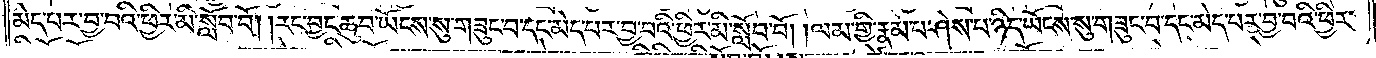མེད་པར་བྱ་བའི་ཕྱིར་མི་སློབ་བོ། །རང་བྱང་ཆུབ་ཡོངས་སུ་གཟུང་བ་དང་མེད་པར་བྱ་བའི་ཕྱིར་མི་སློབ་བོ། །ལམ་གྱི་རྣམ་པ་ཤེས་པ་ཉིད་ཡོངས་སུ་གཟུང་བ་དང་མེད་པར་བྱ་བའི་ཕྱིར་
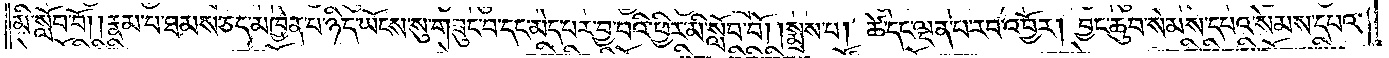མི་སློབ་བོ། །རྣམ་པ་ཐམས་ཅད་མཁྱེན་པ་ཉིད་ཡོངས་སུ་གཟུང་བ་དང་མེད་པར་བྱ་བའི་ཕྱིར་མི་སློབ་བོ། །སྨྲས་པ། ཚེ་དང་ལྡན་པ་རབ་འབྱོར། བྱང་ཆུབ་སེམས་དཔའ་སེམས་དཔའ་
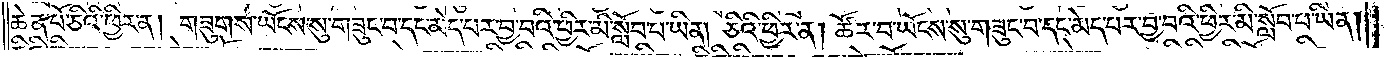ཆེན་པོ་ཅིའི་ཕྱིར་ན། གཟུགས་ཡོངས་སུ་གཟུང་བ་དང་མེད་པར་བྱ་བའི་ཕྱིར་མི་སློབ་པ་ཡིན། ཅིའི་ཕྱིར་ན། ཚོར་བ་ཡོངས་སུ་གཟུང་བ་དང་མེད་པར་བྱ་བའི་ཕྱིར་མི་སློབ་པ་ཡིན།
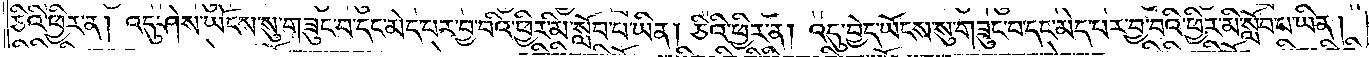ཅིའི་ཕྱིར་ན། འདུ་ཤེས་ཡོངས་སུ་གཟུང་བ་དང་མེད་པར་བྱ་བའི་ཕྱིར་མི་སློབ་པ་ཡིན། ཅིའི་ཕྱིར་ན། འདུ་བྱེད་ཡོངས་སུ་གཟུང་བ་དང་མེད་པར་བྱ་བའི་ཕྱིར་མི་སློབ་པ་ཡིན།
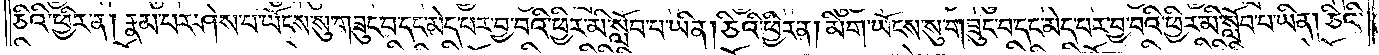ཅིའི་ཕྱིར་ན། རྣམ་པར་ཤེས་པ་ཡོངས་སུ་གཟུང་བ་དང་མེད་པར་བྱ་བའི་ཕྱིར་མི་སློབ་པ་ཡིན། ཅིའི་ཕྱིར་ན། མིག་ཡོངས་སུ་གཟུང་བ་དང་མེད་པར་བྱ་བའི་ཕྱིར་མི་སློབ་པ་ཡིན། ཅིའི་
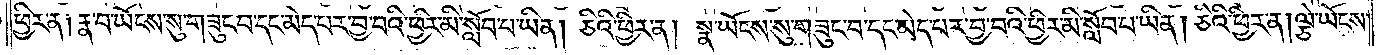ཕྱིར་ན། རྣ་བ་ཡོངས་སུ་གཟུང་བ་དང་མེད་པར་བྱ་བའི་ཕྱིར་མི་སློབ་པ་ཡིན། ཅིའི་ཕྱིར་ན། སྣ་ཡོངས་སུ་བཟུང་བ་དང་མེད་པར་བྱ་བའི་ཕྱིར་མི་སློབ་པ་ཡིན། ཅིའི་ཕྱིར་ན། ལྕེ་ཡོངས་
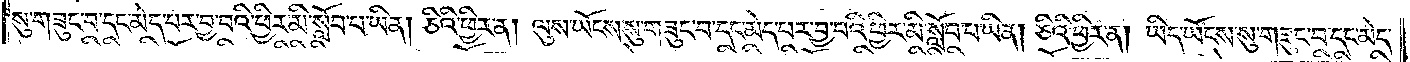སུ་གཟུང་བ་དང་མེད་པར་བྱ་བའི་ཕྱིར་མི་སློབ་པ་ཡིན། ཅིའི་ཕྱིར་ན། ལུས་ཡོངས་སུ་གཟུང་བ་དང་མེད་པར་བྱ་བའི་ཕྱིར་མི་སློབ་པ་ཡིན། ཅིའི་ཕྱིར་ན། ཡིད་ཡོངས་སུ་གཟུང་བ་དང་མེད་
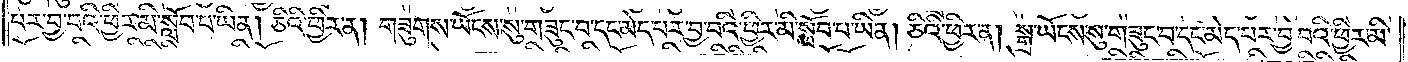པར་བྱ་བའི་ཕྱིར་མི་སློབ་པ་ཡིན། ཅིའི་ཕྱིར་ན། གཟུགས་ཡོངས་སུ་གཟུང་བ་དང་མེད་པར་བྱ་བའི་ཕྱིར་མི་སློབ་པ་ཡིན། ཅིའི་ཕྱིར་ན། སྒྲ་ཡོངས་སུ་གཟུང་བ་དང་མེད་པར་བྱ་བའི་ཕྱིར་མི་
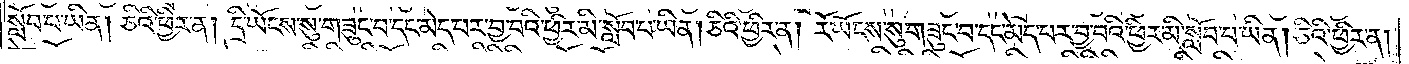སློབ་པ་ཡིན། ཅིའི་ཕྱིར་ན། དྲི་ཡོངས་སུ་གཟུང་བ་དང་མེད་པར་བྱ་བའི་ཕྱིར་མི་སློབ་པ་ཡིན། ཅིའི་ཕྱིར་ན། རོ་ཡོངས་སུ་གཟུང་བ་དང་མེད་པར་བྱ་བའི་ཕྱིར་མི་སློབ་པ་ཡིན། ཅིའི་ཕྱིར་ན།
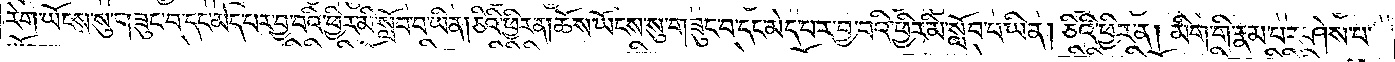རེག་ཡོངས་སུ་གཟུང་བ་དང་མེད་པར་བྱ་བའི་ཕྱིར་མི་སློབ་པ་ཡིན། ཅིའི་ཕྱིར་ན། ཆོས་ཡོངས་སུ་གཟུང་བ་དང་མེད་པར་བྱ་བའི་ཕྱིར་མི་སློབ་པ་ཡིན། ཅིའི་ཕྱིར་ན། མིག་གི་རྣམ་པར་ཤེས་པ་
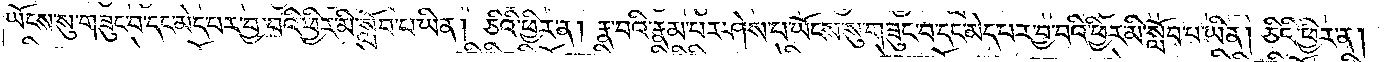ཡོངས་སུ་གཟུང་བ་དང་མེད་པར་བྱ་བའི་ཕྱིར་མི་སློབ་པ་ཡིན། ཅིའི་ཕྱིར་ན། རྣ་བའི་རྣམ་པར་ཤེས་པ་ཡོངས་སུ་གཟུང་བ་དང་མེད་པར་བྱ་བའི་ཕྱིར་མི་སློབ་པ་ཡིན། ཅིའི་ཕྱིར་ན།
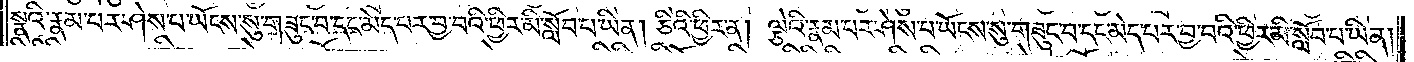སྣའི་རྣམ་པར་ཤེས་པ་ཡོངས་སུ་གཟུང་བ་དང་མེད་པར་བྱ་བའི་ཕྱིར་མི་སློབ་པ་ཡིན། ཅིའི་ཕྱིར་ན། ལྕེའི་རྣམ་པར་ཤེས་པ་ཡོངས་སུ་གཟུང་བ་དང་མེད་པར་བྱ་བའི་ཕྱིར་མི་སློབ་པ་ཡིན།
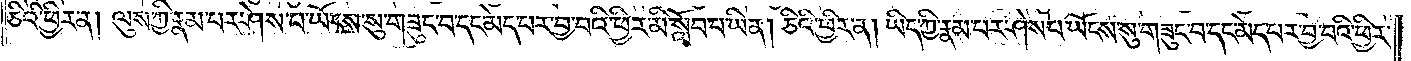ཅིའི་ཕྱིར་ན། ལུས་ཀྱི་རྣམ་པར་ཤེས་པ་ཡོངས་སུ་གཟུང་བ་དང་མེད་པར་བྱ་བའི་ཕྱིར་མི་སློབ་པ་ཡིན། ཅིའི་ཕྱིར་ན། ཡིད་ཀྱི་རྣམ་པར་ཤེས་པ་ཡོངས་སུ་གཟུང་བ་དང་མེད་པར་བྱ་བའི་ཕྱིར་
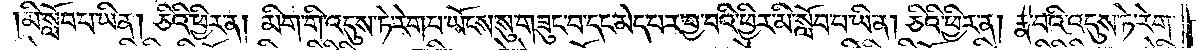མི་སློབ་བ་ཡིན། ཅིའི་ཕྱིར་ན། མིག་གི་འདུས་ཏེ་རེག་པ་ཡོངས་སུ་གཟུང་བ་དང་མེད་པར་བྱ་བའི་ཕྱིར་མི་སློབ་པ་ཡིན། ཅིའི་ཕྱིར་ན། རྣ་བའི་འདུས་ཏེ་རེག་
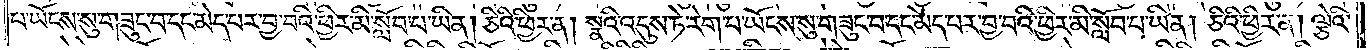པ་ཡོངས་སུ་གཟུང་བ་དང་མེད་པར་བྱ་བའི་ཕྱིར་མི་སློབ་པ་ཡིན། ཅིའི་ཕྱིར་ན། སྣའི་འདུས་ཏེ་རེག་པ་ཡོངས་སུ་གཟུང་བ་དང་མེད་པར་བྱ་བའི་ཕྱིར་མི་སློབ་པ་ཡིན། ཅིའི་ཕྱིར་ན། ལྕེའི་
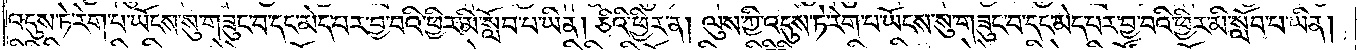འདུས་ཏེ་རེག་པ་ཡོངས་སུ་གཟུང་བ་དང་མེད་པར་བྱ་བའི་ཕྱིར་མི་སློབ་པ་ཡིན། ཅིའི་ཕྱིར་ན། ལུས་ཀྱི་འདུས་ཏེ་རེག་པ་ཡོངས་སུ་གཟུང་བ་དང་མེད་པར་བྱ་བའི་ཕྱིར་མི་སློབ་པ་ཡིན།
